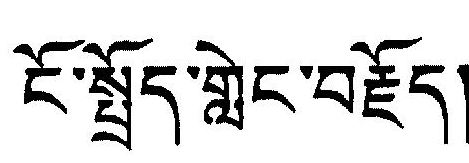ངོ་སྤྱོད་གླེང་བརྗོད།
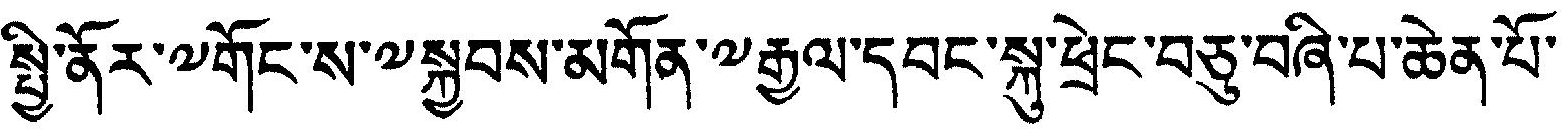སྤྱི་ནོར་༸་གོང་ས་༸སྐྱབས་མགོན་༸རྒྱལ་དབང་སྐུ་ཕྲེང་བཅུ་བཞི་པ་ཆེན་པོ་
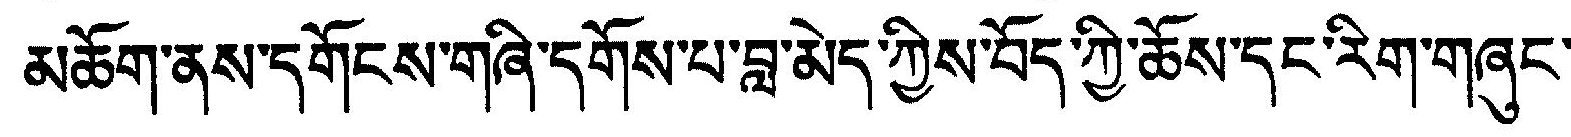མཆོག་ནས་དགོངས་གཞི་དགོས་པ་བླ་མེད་ཀྱིས་བོད་ཀྱི་ཆོས་དང་རིག་གཞུང་
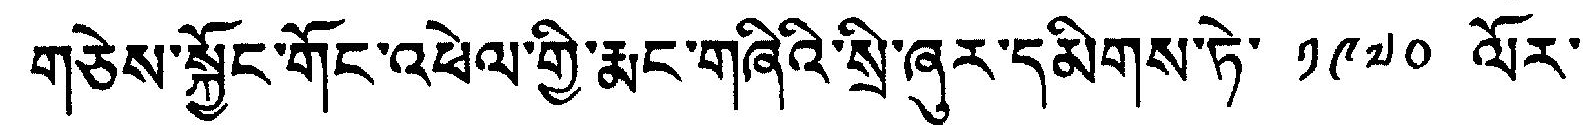གཅེས་སྐྱོང་གོང་འཕེལ་གྱི་རྨང་གཞིའི་སྲི་ཞུར་དམིགས་ཏེ་ ༡༩༧༠ ལོར་
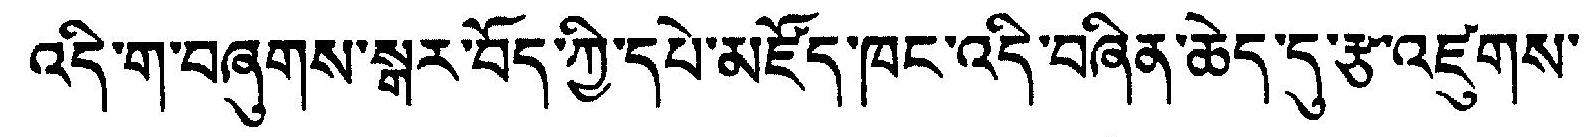འདི་ག་བཞུགས་སྒར་བོད་ཀྱི་དཔེ་མཛོད་ཁང་འདི་བཞིན་ཆེད་དུ་རྩ་འཛུགས་
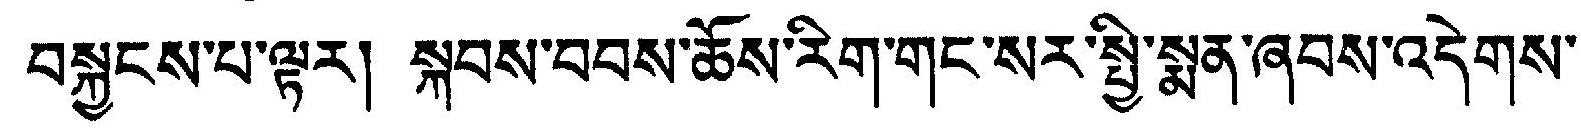བསྐྱངས་པ་ལྟར། སྐབས་བབས་ཆོས་རིག་གང་སར་སྤྱི་སྨན་ཞབས་འདེགས་
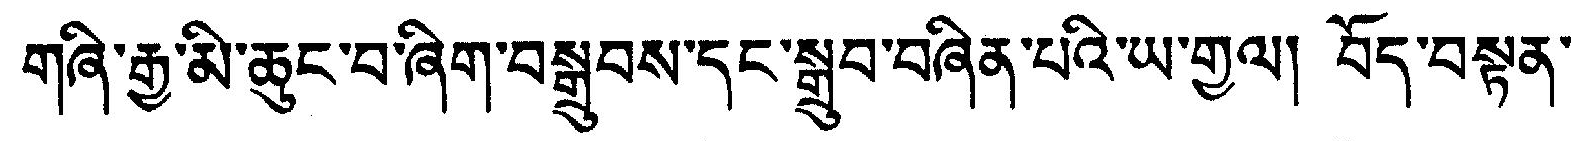གཞི་རྒྱ་མི་ཆུང་བ་ཞིག་བསྒྲུབས་དང་སྒྲུབ་བཞིན་པའི་ཡ་གྱལ། བོད་བསྟན་
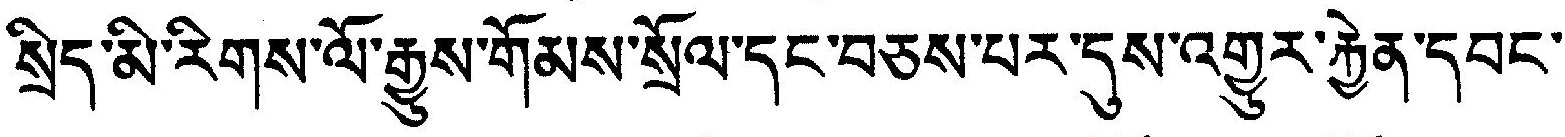སྲིད་མི་རིགས་ལོ་རྒྱུས་གོམས་སྲོལ་དང་བཅས་པར་དུས་འགྱུར་རྐྱེན་དབང་
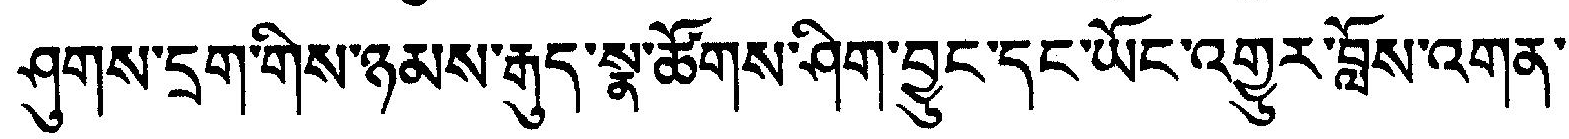ཤུགས་དྲག་གིས་ཉམས་རྒུད་སྣ་ཚོགས་ཤིག་བྱུང་དང་ཡོང་འགྱུར་བློས་འགན་
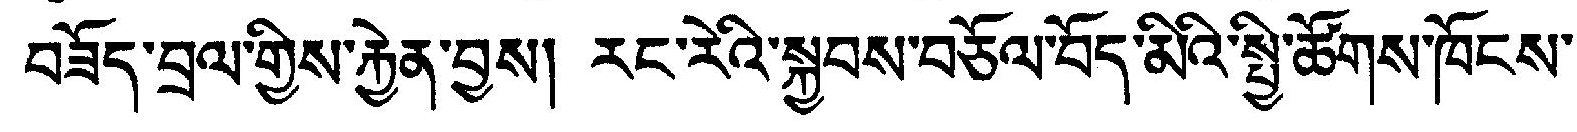བཟོད་བྲལ་གྱིས་རྐྱེན་བྱས། རང་རེའི་སྐྱབས་བཅོལ་བོད་མིའི་སྤྱི་ཚོགས་ཁོངས་
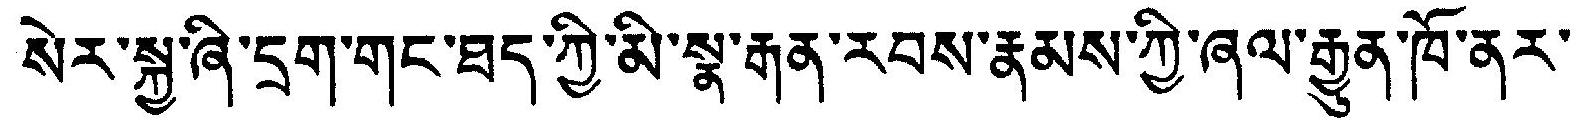སེར་སྐྱ་ཞི་དྲག་གང་ཐད་ཀྱི་མི་སྣ་རྒན་རབས་རྣམས་ཀྱི་ཞལ་རྒྱུན་ཁོ་ནར་
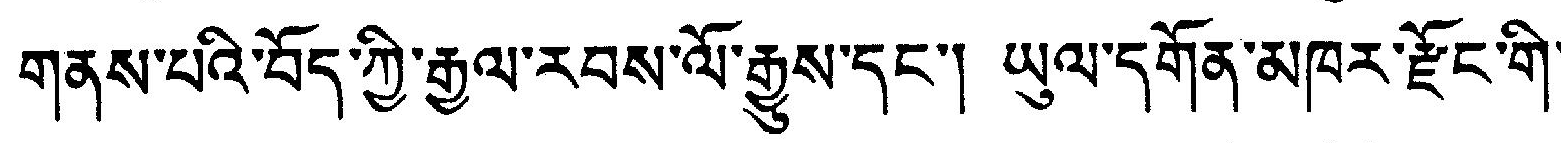གནས་པའི་བོད་ཀྱི་རྒྱལ་རབས་ལོ་རྒྱུས་དང་། ཡུལ་དགོན་མཁར་རྫོང་གི་
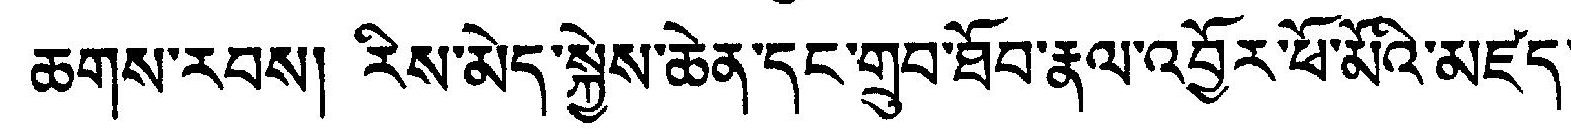ཆགས་རབས། རིས་མེད་སྐྱེས་ཆེན་དང་གྲུབ་ཐོབ་རྣལ་འབྱོར་ཕོ་མོའི་མཛད་
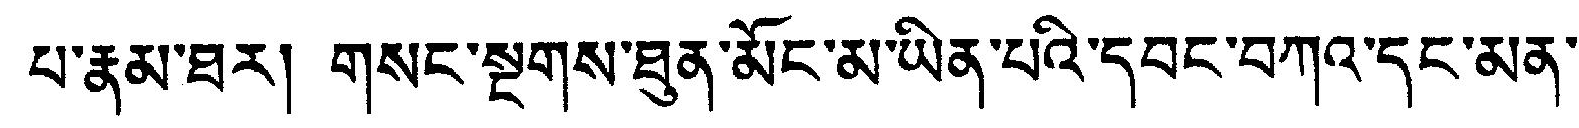པ་རྣམ་ཐར། གསང་སྔགས་ཐུན་མོང་མ་ཡིན་པའི་དབང་བཀའ་དང་མན་
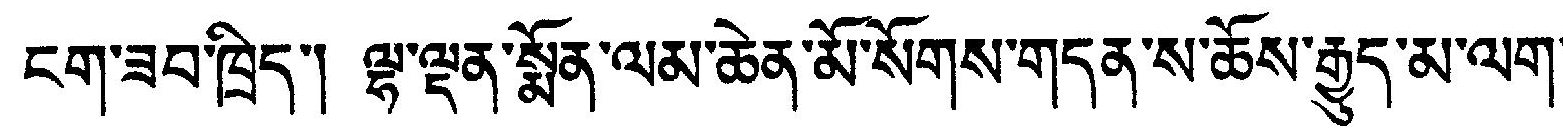ངག་ཟབ་ཁྲིད་། ལྷ་ལྡན་སྨོན་ལམ་ཆེན་མོ་སོགས་གདན་ས་ཆོས་རྒྱུད་མ་ལག་
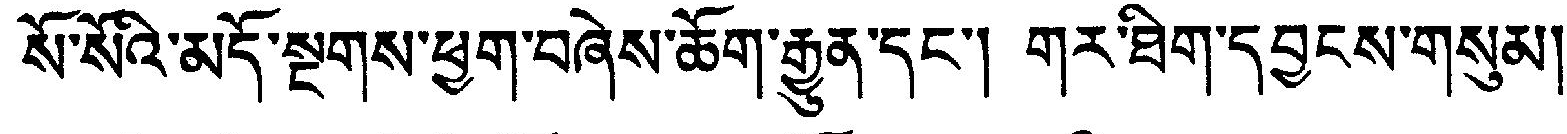སོ་སོའི་མདོ་སྔགས་ཕྱག་བཞེས་ཆོག་རྒྱུན་དང་། གར་ཐིག་དབྱངས་གསུམ།
